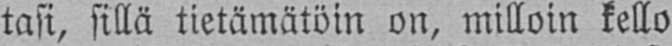tasi, sillä tietämätöin on, milloin kello
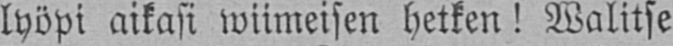lyöpi aikasi wiimeisen hetken! Walitse
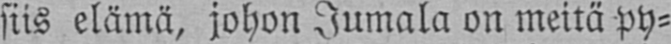siis elämä, johon Jumala on meitä py-
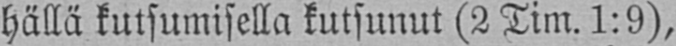hällä kutsumisella kutsunut (2 Tim. 1:9),
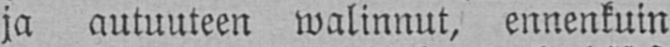ja autuuteen walinnut, ennenkuin
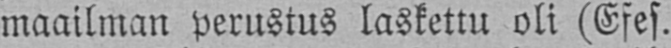maailman perustus laskettu oli (Eses.
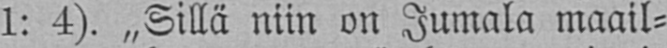1: 4). „Sillä niin on Jumala maail-
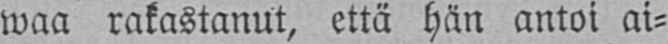waa rakastanut, että hän antoi ai-
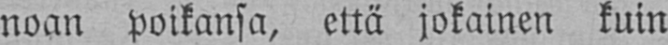noan poikansa, että jokainen kuin
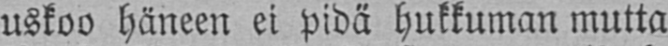uskoo häneen ei pidä hukkuman mutta
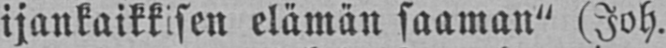ijankaikkisen elämän saaman" (Joh.
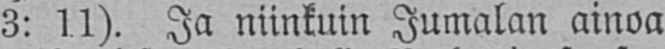3: 11). Ja niinkuin Jumalan ainoa
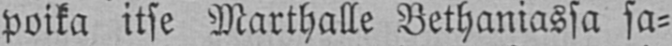poika itse Marthalle Bethaniassa sa-
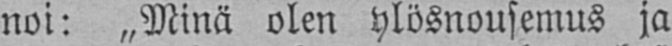noi: „Minä olen ylösnousemus ja
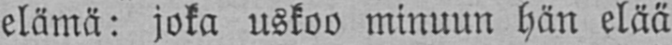elämä: joka uskoo minuun hän elää
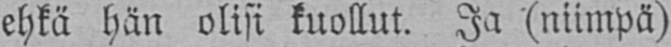ehkä hän olisi kuollut. Ja (niimpä)
